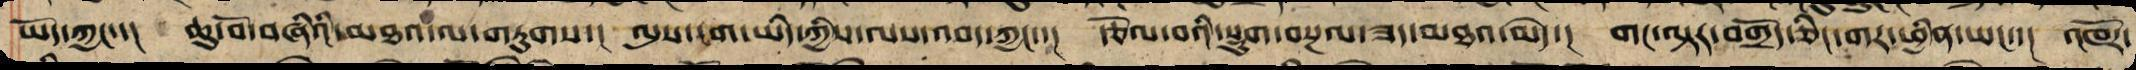ཡོད་ཀྱང་་།  ཆུ་བོ་བཞིའི་མཐའ་ལ་གཏུགས་།  ལུས་ངག་ཡིད་ཀྱིས་ལས་འབད་ཀྱང་་།  རྩོལ་བའི་སྡུག་བསྔལ་ཟད་མཐའ་མེད་།  གང་ལྟར་བགྲོད་ཅིང་གར་ཕྱིན་ཡང་་།  འཁོར་
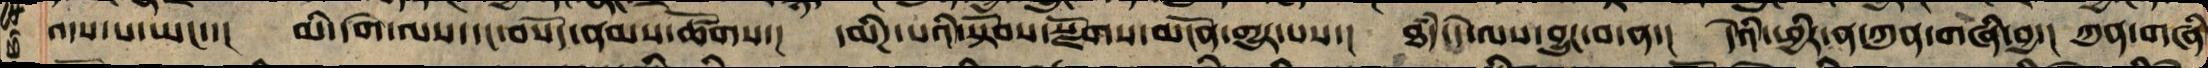འདས་པ་ཡང་་། མི་དགེའི་ལས་དང་བསོད་ནམས་ཚོགས་། དམིཌ་པའི་སྟོབས་སྫོགས་མངོན་གྱུར་པས་། ཐཾད་དེ་ལས་བྱུང་བ་ན་། དེའི་ཕྱིར་ན་ཀུན་གཞི་བྱ་། ཀུན་གཞི
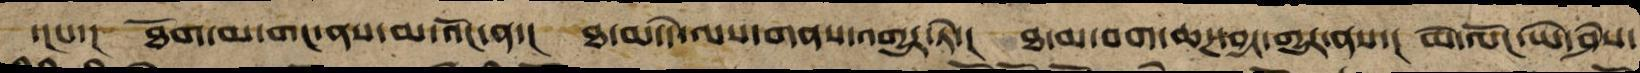་།པ་།  ཐོག་མ་གང་ནས་མ་འོང་ན་།  ཐ་མ་དེ་ལས་གནས་འགྱུར་ཏེ་།  ཐ་མ་བག་ཆཌ་བྱང་གྱུར་ནས་།  མེ་ལོང་ཡེ་ཤེས་
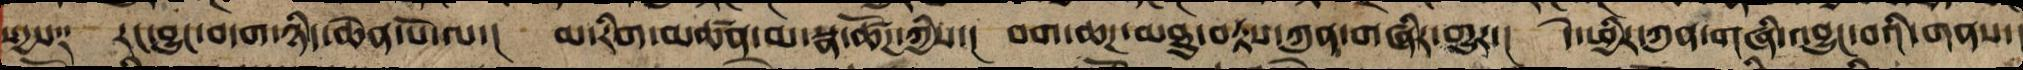སདྱས༑  རང་བྱུང་བདག་ཉིད་ཆེན་པོ་ལ་།  མ་རིག་མཚན་མ་སྣ་ཚོཌ་ཀྱིས་།  བག་ཆཌ་མཐུ་བརྟས་ཀུན་གཞིར་གྱུར་།  དེ་ཕྱིར་ཀུན་གཞི་འབྱུང་བའི་གནས་
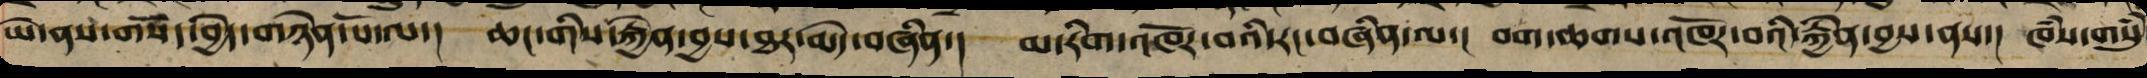ཡེ་ནས་གསོད་བྱེད་གཉེན་པོ་ལ་།  ཆང་གིས་རྐྱེན་བྱས་ཐར་མེད་བཞིན་།  མ་རིག་འཁོར་བའི་རང་བཞིན་ལ་།  བག་ཆགས་འཁོར་བའི་རྐྱེན་བྱས་ནས་།  ཁཾས་གསུཾ་
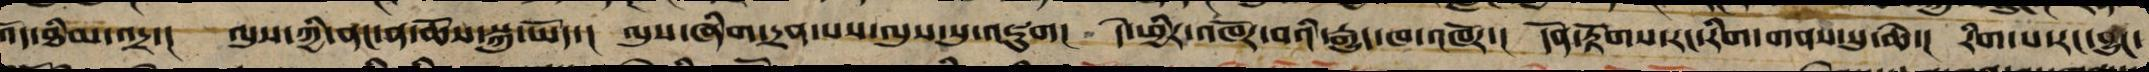འོད་ཐིམ་འདྲ་།  ལུས་ཀྱི་ནང་ན་ཆོས་སྐུ་ཡོད་།  ལུས་ཞིག་དྲན་པས་ལུས་སུ་འཇུག་།  དེ་ཕྱིར་འཁོར་བའི་རྒྱུད་ལ་འཁོར་།  དོན་རྟོགས་རང་རིག་གནས་སུ་ཆེ་།  རིག་པ་རང་བྱུང་
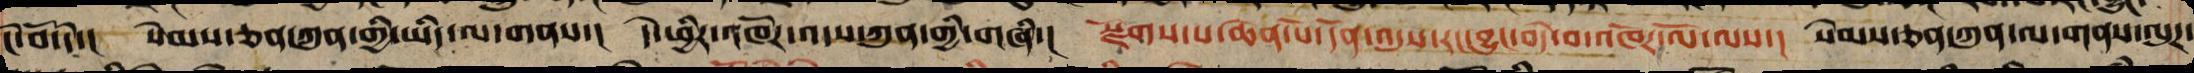ངོ་བོ་དེ་།  སེམས་ཅན་ཀུན་གྱི་ཡིད་ལ་གནས་།  དེ་ཕྱིར་འཁོར་འདས་ཀུན་གྱི་གཞི་།  སྫོགས་པ་ཆེན་པོ་དོན་འདུས་རང་བྱུང་བདེ་བ་འཁོར་ལོ་ལས་། སེམས་ཅན་ཀུན་ལ་གནས་ལུཌ་
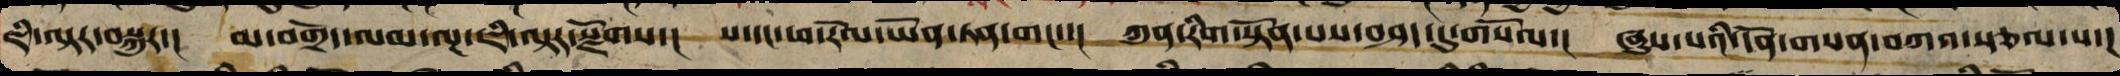ཇི་ལྟར་བསྐུར་།  མ་བགྲོད་ལམ་ལྔ་ཇི་ལྟར་སྫོགས་།  ས་དང་ཕ་རོལ་ཡོན་ཏན་གང་་།  ཀུན་རིག་སྟོན་པས་བཤད་དུ་གསོལ་།  ཞུས་པའི་དོན་གསན་བཀའ་སྩལ་པ་།
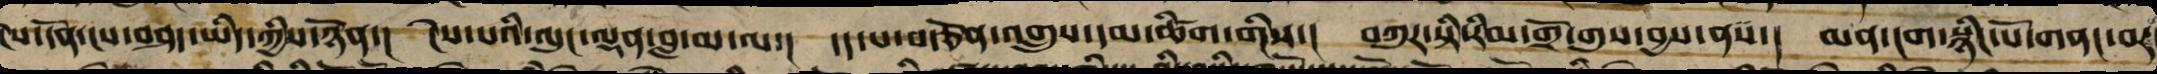ངེས་དོན་ངས་བཤད་ཡིད་ཀྱིས་ཉོན་།  ངེས་པའི་ལུང་ལྡན་བླ་མ་ལ་།  དད་པ་བརྩོན་འགྲུས་དམ་ཚིག་གིས་།  བཀུར་སྟི་རིམ་གྲོ་གུས་བྱས་ནས་།  མན་ངག་སྙིང་པོ་གནང་བར
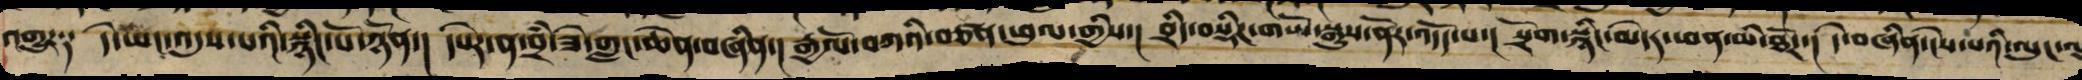འགྱུར༑  དེ་ཡང་འདུས་པའི་སྙིང་པོ་ཉོན་།  དཔེར་ན་བྲཾ་ཟེ་གླང་ཆེན་བཞིན་།  རྒྱལོ་བཀའི་བཙན་ཕུལ་གྱིས་།  བྲིད་བསྡིཌ་གཡོ་སྒྱུས་ནོར་འདོད་པ་།  སྲོག་སྙིང་མེདར་ཕན་མི་ཐོཌ་།  དེ་བཞིན་ངེས་པའི་ལུང་ལྟ
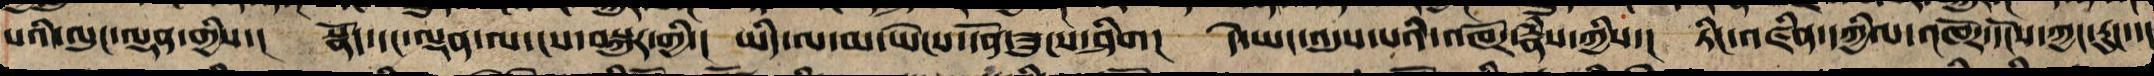པའི་ལུང་ལྡན་གྱིས་།  སྣོད་དང་ལྡན་ལ་ངས་བསྐུར་གྱི་།  ཡིད་ལ་མ་ཡེངས་དོན་ཟུངས་ཤིག།  དེ་ཡང་འདུས་པའི་འཁོར་རྣཾས་ཀྱིས་།  ཏིང་འཛིན་དཀྱིལ་འཁོར་དངོས་ཀྱང་རུང་།
